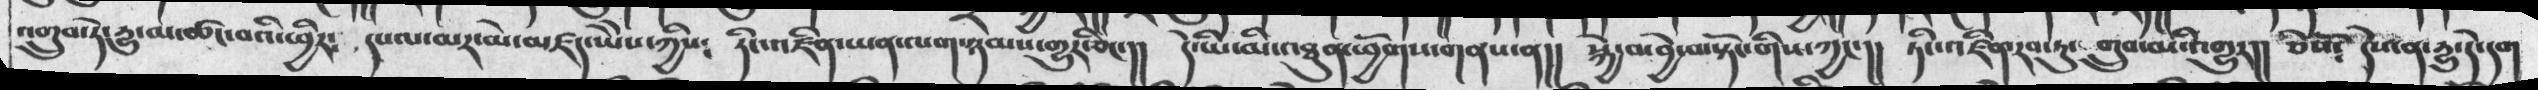འགྲུབ་ཏེ་དྱུ་མ་ཚང་བའི་ཕྱིར༴  དཔལ་མར་མེ་མཛད་ཡཻས་ཀྱིས༴  ཏིང་འཛིན་ཡན་ལག་ཉམས་གྱུར་ཅིང་།།  དེ་ཡི་མི་འཐུན་ཕྱོགས་གནས་ན།།  སྐྱེ་བ་བྱེ་བ་སྟོང་གིས་ཀྱང་།།  ཏིང་འཛིན་རབ་ཏུ་གྲུབ་མི་འགྱུར།།  ཅེསོ༴  དེས་ན་དྱུ་དེ་དག
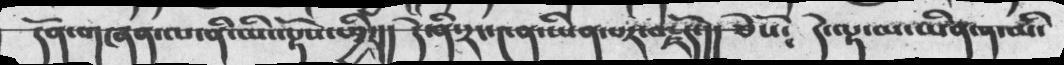དོན་གཞན་ལ་ནི་མི་ལྟོས་ཕྱིར།།  དེ་ནི་རང་༤ན་ཡིན་པར་བརྗོད་།།  ཅེསོ༴  དེ་ལྟ་མ་ཡིན་ན་མི་
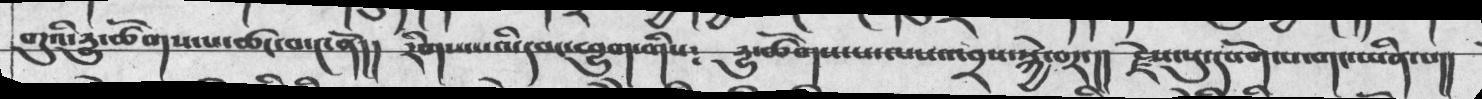གུའི་དྱུ་ཚོགས་པ་ཚང་བ་༤ནོ།།  རིགས་པའི་དབང་ཕྱུག་གིས༴  དྱུ་ཚོགས་པ་ལས་འབྲས་སྐྱེ་བར་།།  རྗེས་སུ་དཔོག་པ་གང་ཡིན་པ།།
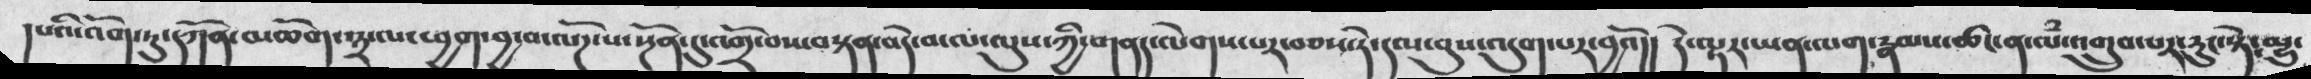།པའི་འོག་ཏུ་དཀོན་མཆོག་༣་ལ་ཕྱག་བྱ་བ་ལོཌ་པ་སྔོན་དུ་འགྲོ་བས་བསྟན་བདེ་བ་ལ་ལུས་ཀྱི་གནད་ལེགས་པར་བཅས་ཏེ་དལ་བུས་འདུག་པར་བྱའོ།། དེ་ལྟར་ཡན་ལག་རྣམས་ཚང་ན་ལཾ་འགྲུབ་པར་རུང་སྟེ་མྱུ་
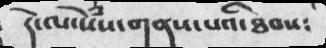དེ་ལ་སེཾས་གནས་པའི་ཐབས༴
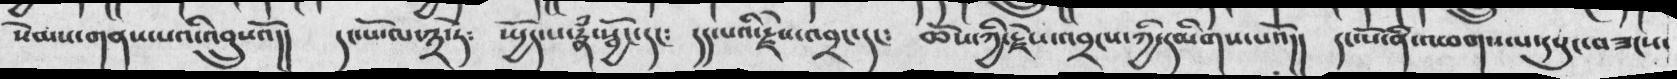སེམས་གནས་པའི་འབྲུསའོ།།   དང་པོ་ལ་༣་ཏེ༴  སྤྱོད་པ་རྣཾ་སྦྱོང་དང༴  དད་པའི་རྗེས་འབྲང་དང༴  ཆོས་ཀྱི་རྗེས་འབྲངས་ཀྱི་དམིགས་པའོ།།  དང་པོ་ནི་འཕགས་པ་དཔུང་བཟངས་
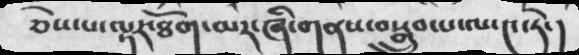ཅེས་པ་ལྟར་ཐོག་མར་ཞི་གནས་བསྒྲུབ་པ་ལ་༤་ཏེ་།
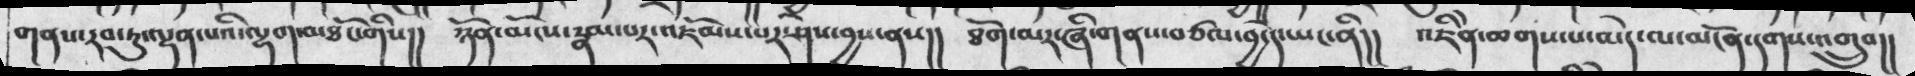གནས་རབ་ཏུ་ལྡན་པའི་ལྷག་མཐོང་གིས།།  ཉོན་མོངས་རྣམ་པར་འཇོམས་པར་ཤེས་བྱས་ནས།།  ཐོག་མར་ཞི་གནས་བཙལ་བྱ་དེ་ཡང་ནི།།  འཇིེན་ཆགས་པ་མེད་ལ་མངོན་དགས་འགྲུབ།།
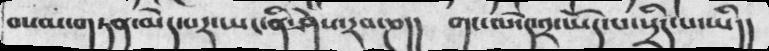བསམ་གཏན་མེད་པར་ཡང་ནི་ཤེས་རབ་ཎ།།  གང་ལ་དེ་༢་ཡོད་པ་སྲིད་པ་ཡི།།
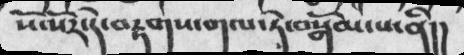སོ་སོར་དེ་བརྟགས་གལ་ཏེ་བསྒོམ་པ་ནི།།
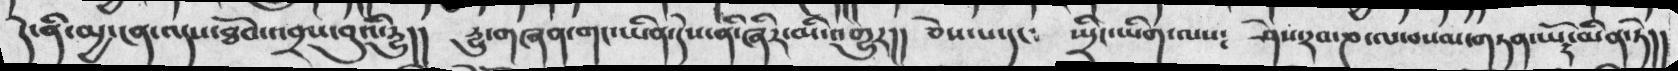དེ་ནི་མྱ་ངན་འདས་ཐོབ་འབྲས་བུའི་དྱུ།།  དྱུ་གཞན་གང་ཡིན་དེས་ན་ཞིར་མི་འགྱུར།།  ཅེས་པ་དང༴  སྤྲིང་ཡིག་ལས༴   ཤེས་རབ་ཎ་ལ་བསམ་གཏན་ཡོད་མིན་ཏེ།།
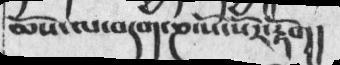མོས་ལ་བདག་ཎ་སོ་སོར་རྟོག།
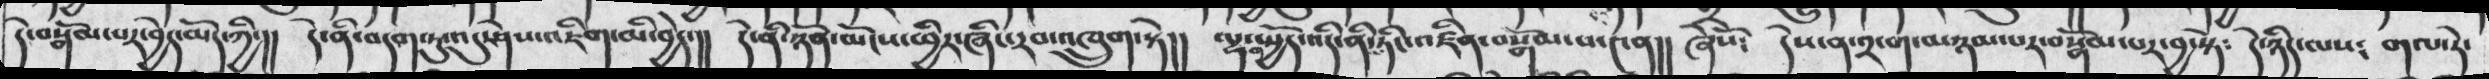དེ་བསྒོམ་པར་བྱེད་མོད་ཀྱི་།།   དེ་ནི་བདག་ཏུ་འདུ་ཤེས་འཇིག་མི་བྱེད་།།   དེ་ནི་ཉོན་མོངས་ཕྱིར་ཞིང་རབ་འཁྲུག་སྟེ།།   ལྷག་སྤྱོད་འདི་ནི་ཏིང་འཛིན་བསྒོམ་པ་༤ན།།   ཞེསོ༴   དེས་ན་༢་ག་མཉམ་པར་བསྒོམ་པར་བྱ་སྟེ༴   དེ་ཉིད་ལས༴   གལ་ཏེ་
